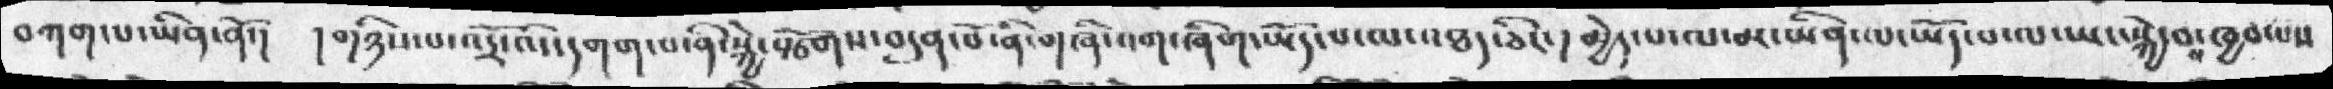བཀག་པ་ཡིན་ནོ་།  ། གཉིས་པ་འདྲོ་འདི་དགག་པ་ནི་སྐྱེ་སྩོགས་བདུན་པོ་ནི་གཞི་འག་ཞིག་ཡོད་པ་ལ་འཐད་ཅིང་།  མྱེད་པ་ལ་མ་ཡིན་པ་ཡོད་པ་ལ་ཡང་སྐྱེ་བས་ཁྱབ་པས
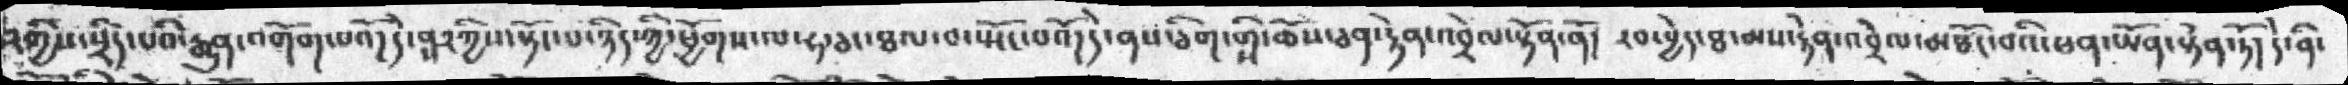༢གྱིས་སྲིད་པའི་རྒུན་འགོག་པའོ།  དེ་ནས་༢་ཀྱིས་སྟོང་པ་ཉིད་ཀྱི་ཕྱིགས་ལ་ཧ་ཅང་ཏལ་བ་སྤོང་པའོ།དེ་ནས་ཅིག་གིས་ཆོས་ཅན་རྟེན་འབྲེལ་སྟོན་ནོ་།  རབ་བྱེད་ཐ་མས་རྟེན་འབྲེལ་མཐོང་བའི་ཕན་ཡོན་སྟོན་ཏོ་།  དེ་ནི་
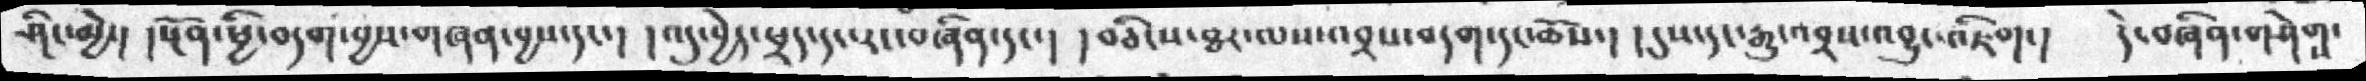ཤིང་མྱེ་།    །སྔོན་ཕྱི་བདག་བྱས་གཞན་བྱས་དང་།  ། འདུ་བྱེད་ཕྲད་དང་རང་བཞིན་དང་།  ། བཅིངས་ཐར་ལས་འབྲས་བདག་དང་ཆོས་།  ། དུས་དང་རྒྱུ་འབྲས་འབྱུང་འཇིག་།  དེ་བཞིན་གཤེགས་
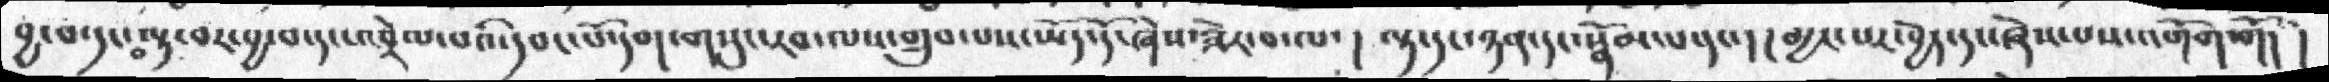བྱ་བ་དང་བལྟ་བར་བྱ་བ་དང་འབྲེལ་པའི་དབང་པོ་དག་གསུང་རབ་ལས་གྲུབ་པས་ཡོད་དོ་ཞེས་ཟེར་བ་ལ་།  ལྟ་དང་ཉན་དང་སྒོམ་པ་དང་།  ། མྱང་པར་བྱེད་དང་ཞེས་པས་འགོག་གོ། །
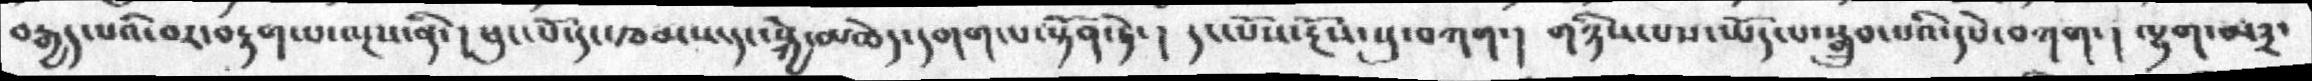བརྒྱད་པའི་བར་བརྟག་པ་ལྔས་ནི་། ཕུང་པོ་དང་ཁམས་དང་སྐྱེ་མཆེད་དགག་པ་སྟོན་ཏེ་། དང་པོས་རྔོས་སུ་བཀག་། གཉིས་པས་ཡོད་པ་སྒྲུབ་པའི་དཔེ་བཀག་། ལྷག་མ༣་
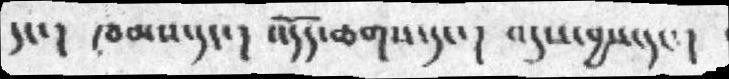དང་།  ཁམས་དང་། འདོད་ཆགས་དང་། འདུས་བྱས་དང་།
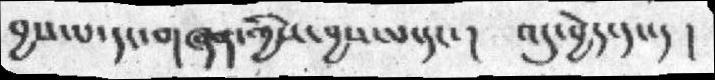བྱས་པ་དང་གཞན་ཀྱིས་བྱས་པ་དང་། འདུ་བྱེད་དང་། །
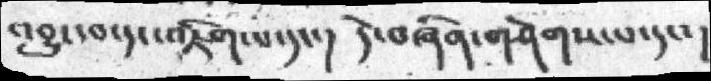འབྱུང་བ་དང་འཇིག་པ་དང་། དེ་བཞིན་གཤེགས་པ་དང་།
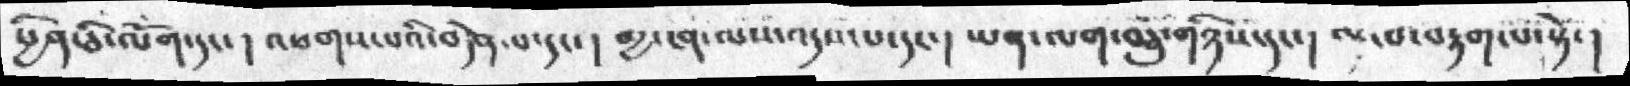ཕྱིན་ཅི་ལོག་དང་ ། འཕགས་པའི་བདེན་པ་དང་  ། མྱ་ངན་ལས་འདས་པ་དང་།  ཡན་ལག་བཅུ་གཉིས་དང་།  ལྟ་བ་བརྟག་པ་སྟེ་ །
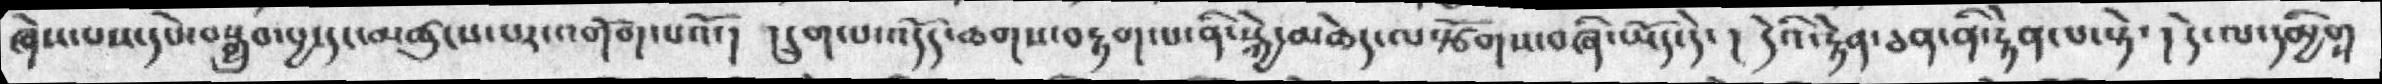ཞེས་པས་དཔེ་བསྒྲུབ་བྱ་དང་མཚུངས་པར་འགོག་པའོ་།  ། དྲུག་པ་འདོད་ཆགས་བརྟག་པ་ནི་སྐྱེ་མཆེད་ལསྩོགས་བཞི་ཡོད་དེ་།  དེའི་རྟེན་ཅན་ནི་རྟེན་པ་སྟེ་།  དེ་ལ་དམྱིགས་
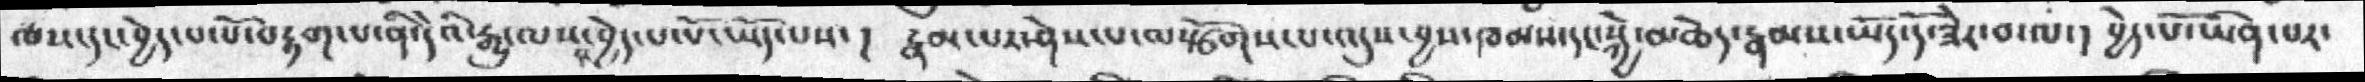ཁས་དང་བྱེད་པ་པོ་བརྟག་པ་ནི་དེའི་རྒྱུ་ལས་བྱེད་པ་པོ་ཡོད་པས་།  རྣམ་པར་ཤེས་པ་ལསྩོགས་པ་འདུས་བྱས་ཁམས་དང་སྐྱེ་མཆེད་རྣམས་ཡོད་དོ་ཟེར་བ་ལ་།  བྱེད་པོ་ཡིན་པར་
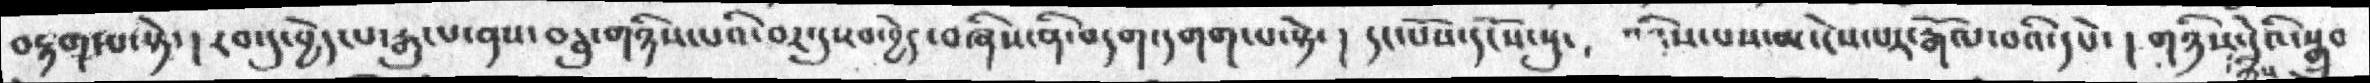བརྟག་པ་སྟེ་།  རབ་དུ་བྱེད་པ་རྒུ་པ་ནས་བཅུ་གཉིས་པའི་བར་དུ་རབ་བྱེད་བཞིས་ནི་བདག་དགག་པ་སྟེ་།   དང་པོས་དངོས་སུ་   གཉིས་པས་མ་ངེས་པར་རྒོལ་བའི་དཔེ་།  གཉིས་དེའི་སྒྲུབ
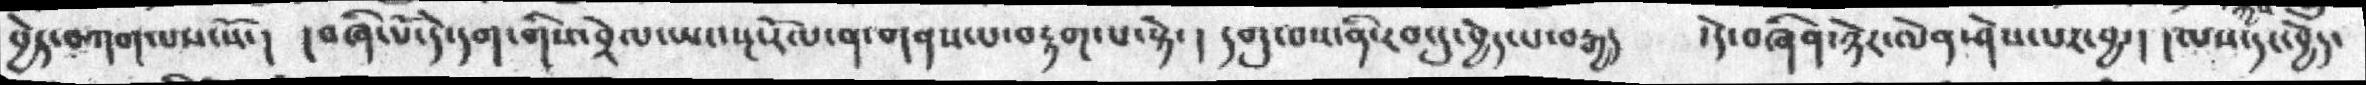བྱེད་བཀག་པས་སོ་།  ། བཞི་པོ་དེ་དག་གིས་བྲེལ་སྤང་སྔ་རོལ་ན་གནས་པ་བརྟག་པ་སྟེ་།  དགུ་པས་ནི་རབ་དུ་བྱེད་པ་བརྒྱ་  ་དེ་བཞིན་ཉེར་ལེན་ཤེས་པར་བྱ་།  ལས་དང་བྱེད་
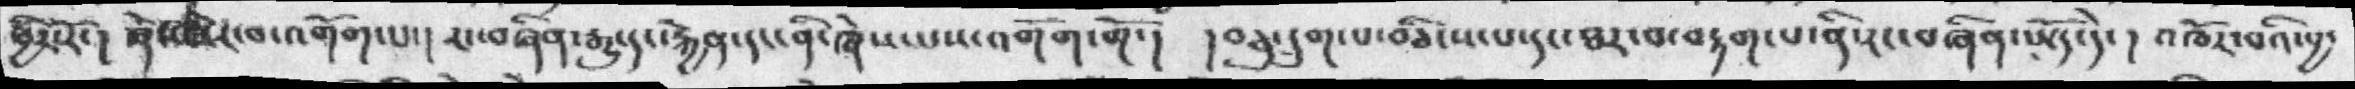ཕྱིར་རོ་།  ཞེས་ཟེར་བ་འགོག་པ་།  རང་བཞིན་རྒྱུ་དང་རྐྱེན་དང་ནི་ཞེས་པས་འགོག་གོ་།   ། བཅུ་དྲུག་པ་བཅིངས་པ་དང་ཐར་བ་བརྟག་པ་ནི་རང་བཞིན་ཡོད་དེ་།  འཁོར་བའི་བྱ་
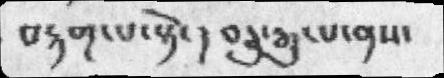བརྟག་པ་སྟེ་། བཅུ་རྒུ་པ་ནས་
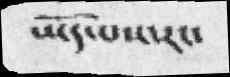ཡོད་པས་རང་
